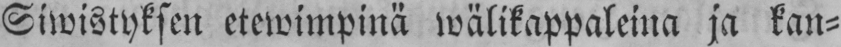Siwistyksen etewimpinä wälikappaleina ja kan-
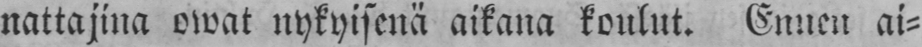nattajina owat nykyisenä aikana koulut. Ennen ai-
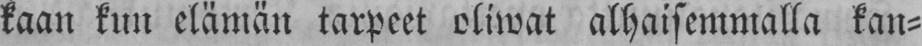kaan kun elämän tarpeet oliwat alhaisemmalla kan-
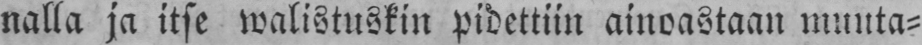nalla ja itse walistuskin pidettiin ainoastaan muuta-
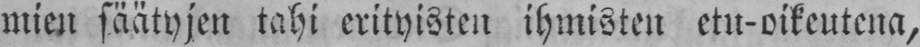mien säätyjen tahi erityisten ihmisten etu-oikeutena,
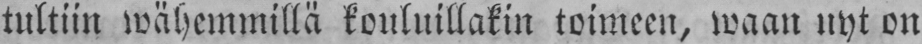tultiin wähemmillä kouluillakin toimeen, waan nyt on
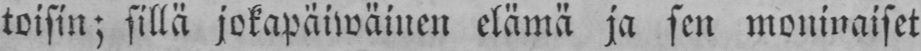toisin; sillä jokapäiwäinen elämä ja sen moninaiset
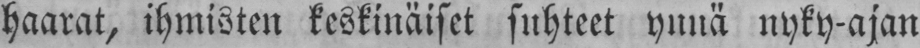haarat, ihmisten keskinäiset suhteet ynnä nyky-ajan
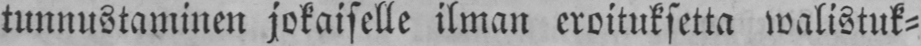tunnustaminen jokaiselle ilman eroituksetta walistuk-
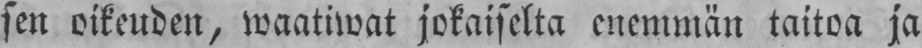sen oikeuden, waatiwat jokaiselta enemmän taitoa ja
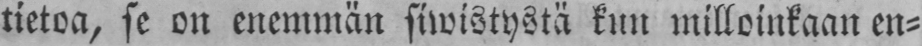tietoa, se on enemmän siwistystä kun milloinkaan en-
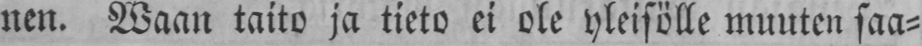nen. Waan taito ja tieto ei ole yleisölle muuten sää-
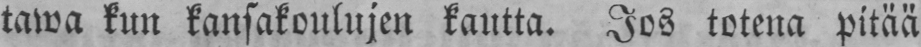täwä kun kansakoulujen kautta. Jos totena pitää
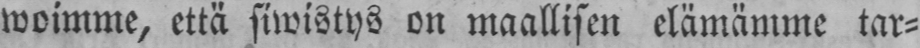woimme, että siwistys on maallisen elämämme tar-
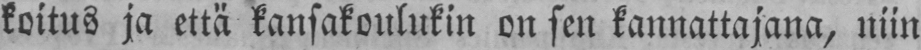koitus ja että kansakoulukin on sen kannattajana, niin
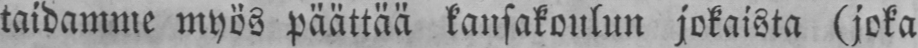taidamme myös päättää kansakoulun jokaista (joka
